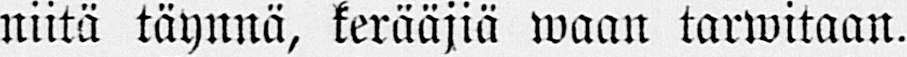niitä täynnä, kerääjiä waan tarwitaan.
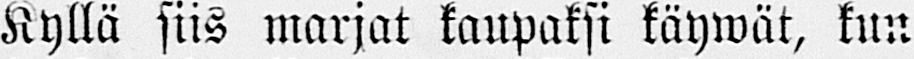Kyllä siis marjat kaupaksi käywät, kun
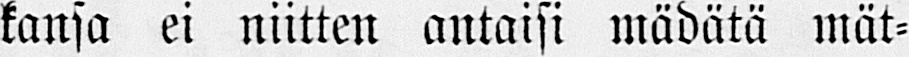kansa ei niitten antaisi mädätä mät-
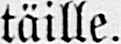täille.
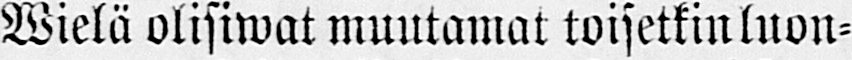Wielä olisiwat muutamat toisetkin luon-
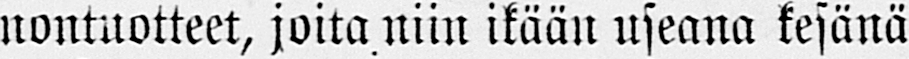nontuotteet, joita niin ikään useana kesänä
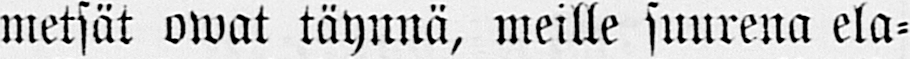metsät owat täynnä, meille suurena ela-
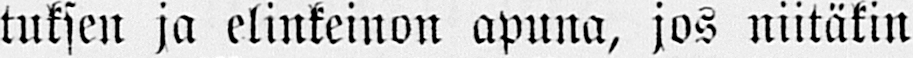tuksen ja elinkeinon apuna, jos niitäkin
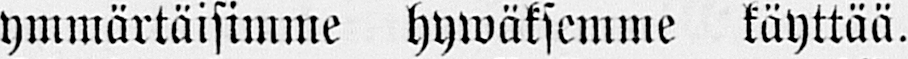ymmärtäisimme hywäksemme käyttää.
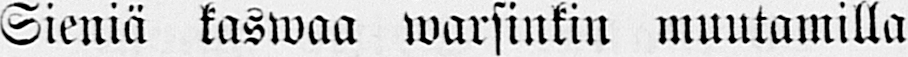Sieniä kaswaa warsinkin muutamilla
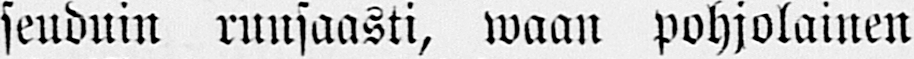seuduin runsaasti, waan pohjolainen
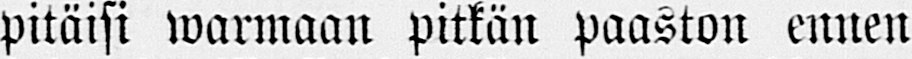pitäisi warmaan pitkän paaston ennen
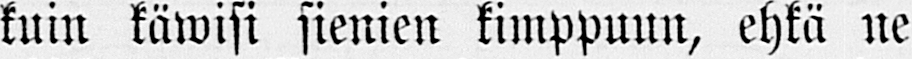kuin käwisi sienien kimppuun, ehkä ne
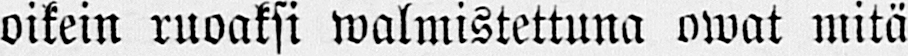oikein ruoaksi walmistettuna owat mitä
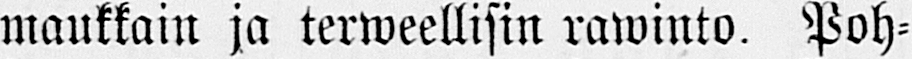maukkain ja terweellisin rawinto. Poh-
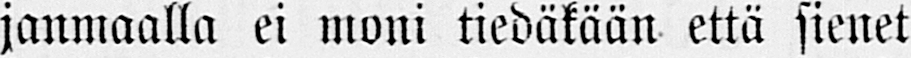janmaalla ei moni tiedäkään että sienet
